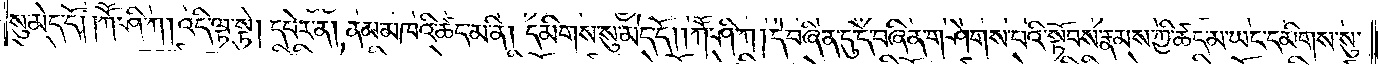སུ་མེད་དོ། །ཀཽ་ཤི་ཀ །འདི་ལྟ་སྟེ། དཔེར་ན། ནམ་མཁའི་ཚད་མ་ནི། དམིགས་སུ་མེད་དོ། །ཀཽ་ཤི་ཀ །དེ་བཞིན་དུ་དེ་བཞིན་གཤེགས་པའི་སྟོབས་རྣམས་ཀྱི་ཚད་མ་ཡང་དམིགས་སུ་
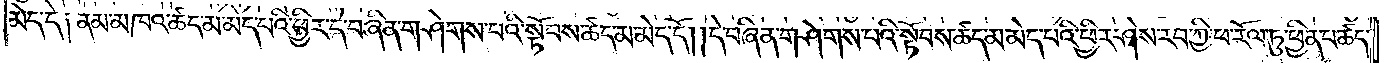མེད་དེ༑ ནམ་མཁའ་ཚད་མ་མེད་པའི་ཕྱིར་དེ་བཞིན་གཤེགས་པའི་སྟོབས་ཚད་མ་མེད་དོ། །དེ་བཞིན་གཤེགས་པའི་སྟོབས་ཚད་མ་མེད་པའི་ཕྱིར་ཤེས་རབ་ཀྱི་ཕ་རོལ་ཏུ་ཕྱིན་པ་ཚད་
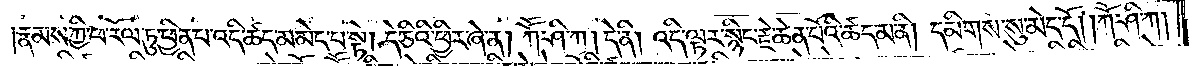རྣམས་ཀྱི་ཕ་རོལ་ཏུ་ཕྱིན་པ་འདི་ཚད་མ་མེད་པ་སྟེ། དེ་ཅིའི་ཕྱིར་ཞེ་ན། ཀཽ་ཤི་ཀ །དེ་ནི། འདི་ལྟར་སྙིང་རྗེ་ཆེན་པོའི་ཚད་མ་ནི། དམིགས་སུ་མེད་དོ། །ཀཽ་ཤི་ཀ།
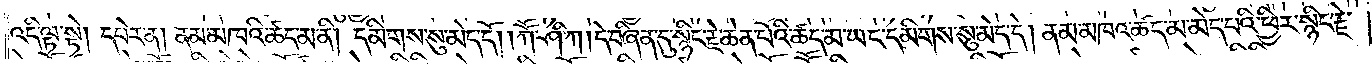འདི་ལྟ་སྟེ། དཔེར་ན། ནམ་མཁའི་ཚད་མ་ནི། དམིགས་སུ་མེད་དོ། །ཀཽ་ཤི་ཀ །དེ་བཞིན་དུ་སྙིང་རྗེ་ཆེན་པོའི་ཚད་མ་ཡང་དམིགས་སུ་མེད་དེ། ནམ་མཁའ་ཚད་མ་མེད་པའི་ཕྱིར་སྙིང་རྗེ་
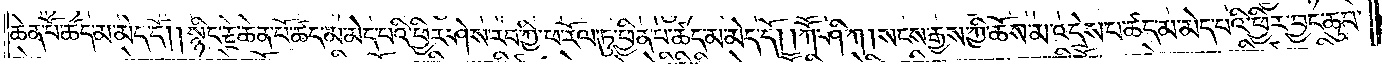ཆེན་པོ་ཚད་མ་མེད་དོ། །སྙིང་རྗེ་ཆེན་པོ་ཚད་མ་མེད་པའི་ཕྱིར་ཤེས་རབ་ཀྱི་ཕ་རོལ་ཏུ་ཕྱིན་པ་ཚད་མ་མེད་དོ། །ཀཽ་ཤི་ཀ །སངས་རྒྱས་ཀྱི་ཆོས་མ་འདྲེས་པ་ཚད་མ་མེད་པའི་ཕྱིར་བྱང་ཆུབ་
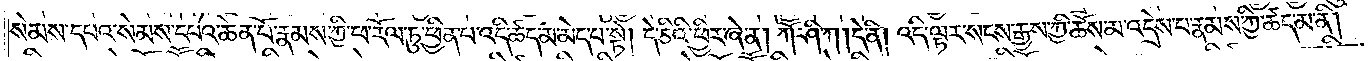སེམས་དཔའ་སེམས་དཔའ་ཆེན་པོ་རྣམས་ཀྱི་ཕ་རོལ་ཏུ་ཕྱིན་པ་འདི་ཚད་མ་མེད་པ་སྟེ། དེ་ཅིའི་ཕྱིར་ཞེ་ན། ཀཽ་ཤི་ཀ །དེ་ནི། འདི་ལྟར་སངས་རྒྱས་ཀྱི་ཆོས་མ་འདྲེས་པ་རྣམས་ཀྱི་ཚད་མ་ནི།
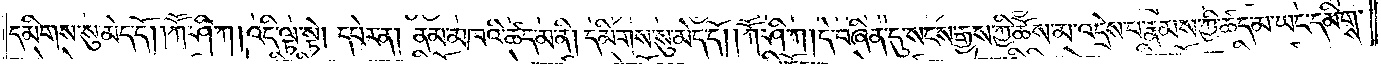དམིགས་སུ་མེད་དོ། །ཀཽ་ཤི་ཀ །འདི་ལྟ་སྟེ། དཔེར་ན། ནམ་མཁའི་ཚད་མ་ནི། དམིགས་སུ་མེད་དོ༎ ཀཽ་ཤི་ཀ །དེ་བཞིན་དུ་སངས་རྒྱས་ཀྱི་ཆོས་མ་འདྲེས་པ་རྣམས་ཀྱི་ཚད་མ་ཡང་དམིགས་
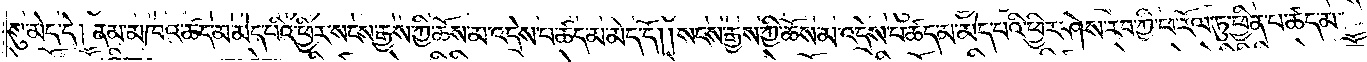སུ་མེད་དེ། ནམ་མཁའ་ཚད་མ་མེད་པའི་ཕྱིར་སངས་རྒྱས་ཀྱི་ཆོས་མ་འདྲེས་པ་ཚད་མ་མེད་དོ། །སངས་རྒྱས་ཀྱི་ཆོས་མ་འདྲེས་པ་ཚད་མ་མེད་པའི་ཕྱིར་ཤེས་རབ་ཀྱི་ཕ་རོལ་ཏུ་ཕྱིན་པ་ཚད་མ་
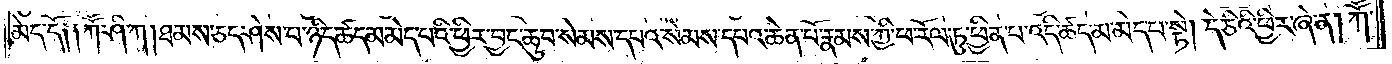མེད་དོ༑ ༑ཀཽ་ཤི་ཀ །ཐམས་ཅད་ཤེས་པ་ཉིད་མེད་པའི་ཕྱིར་བྱང་ཆུབ་སེམས་དཔའ་སེམས་དཔའ་ཆེན་པོ་རྣམས་ཀྱི་ཕ་རོལ་ཏུ་ཕྱིན་པ་འདི་ཚད་མ་མེད་པ་སྟེ། དེ་ཅིའི་ཕྱིར་ཞེ་ན། ཀཽ་
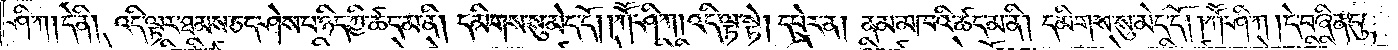ཤི་ཀ །དེ་ནི། འདི་ལྟར་ཐམས་ཅད་ཤེས་པ་ཉིད་ཀྱི་ཚད་མ་ནི། དམིགས་སུ་མེད་དོ། །ཀཽ་ཤི་ཀ །འདི་ལྟ་སྟེ། དཔེར་ན། ནམ་མཁའི་ཚད་མ་ནི། དམིགས་སུ་མེད་དོ། །ཀཽ་ཤི་ཀ །དེ་བཞིན་དུ་
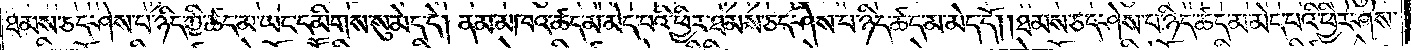ཐམས་ཅད་ཤེས་པ་ཉིད་ཀྱི་ཚད་མ་ཡང་དམིགས་སུ་མེད་དེ། ནམ་མཁའ་ཚད་མ་མེད་པའི་ཕྱིར་ཐམས་ཅད་ཤེས་པ་ཉིད་ཚད་མ་མེད་དོ། །ཐམས་ཅད་ཤེས་པ་ཉིད་ཚད་མ་མེད་པའི་ཕྱིར་ཤེས་
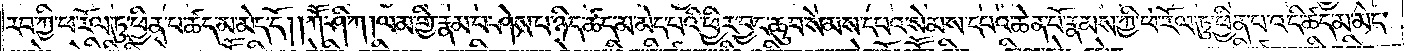རབ་ཀྱི་ཕ་རོལ་ཏུ་ཕྱིན་པ་ཚད་མ་མེད་དོ། །ཀཽ་ཤི་ཀ །ལམ་གྱི་རྣམ་པ་ཤེས་པ་ཉིད་ཚད་མ་མེད་པའི་ཕྱིར་བྱང་ཆུབ་སེམས་དཔའ་སེམས་དཔའ་ཆེན་པོ་རྣམས་ཀྱི་ཕ་རོལ་ཏུ་ཕྱིན་པ་འདི་ཚད་མ་མེད་
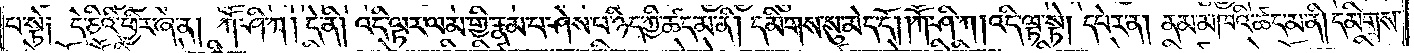པ་སྟེ། དེ་ཅིའི་ཕྱིར་ཞེ་ན། ཀཽ་ཤི་ཀ །དེ་ནི། འདི་ལྟར་ལམ་གྱི་རྣམ་པ་ཤེས་པ་ཉིད་ཀྱི་ཚད་མ་ནི། དམིགས་སུ་མེད་དོ། །ཀཽ་ཤི་ཀ །འདི་ལྟ་སྟེ། དཔེར་ན། ནམ་མཁའི་ཚད་མ་ནི། དམིགས་
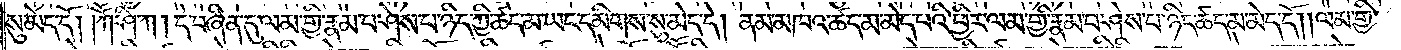སུ་མེད་དོ། །ཀཽ་ཤི་ཀ །དེ་བཞིན་དུ་ལམ་གྱི་རྣམ་པ་ཤེས་པ་ཉིད་ཀྱི་ཚད་མ་ཡང་དམིགས་སུ་མེད་དེ། ནམ་མཁའ་ཚད་མ་མེད་པའི་ཕྱིར་ལམ་གྱི་རྣམ་པ་ཤེས་པ་ཉིད་ཚད་མ་མེད་དོ། །ལམ་གྱི་
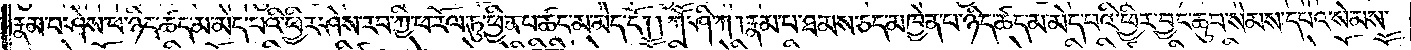རྣམ་པ་ཤེས་པ་ཉིད་ཚད་མ་མེད་པའི་ཕྱིར་ཤེས་རབ་ཀྱི་ཕ་རོལ་ཏུ་ཕྱིན་པ་ཚད་མ་མེད་དོ། །ཀཽ་ཤི་ཀ །རྣམ་པ་ཐམས་ཅད་མཁྱེན་པ་ཉིད་ཚད་མ་མེད་པའི་ཕྱིར་བྱང་ཆུབ་སེམས་དཔའ་སེམས་
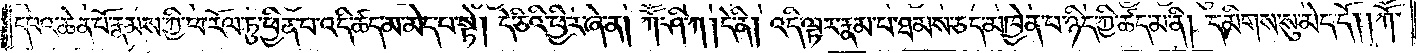དཔའ་ཆེན་པོ་རྣམས་ཀྱི་ཕ་རོལ་ཏུ་ཕྱིན་པ་འདི་ཚད་མ་མེད་པ་སྟེ། དེ་ཅིའི་ཕྱིར་ཞེ་ན། ཀཽ་ཤི་ཀ །དེ་ནི། འདི་ལྟར་རྣམ་པ་ཐམས་ཅད་མཁྱེན་པ་ཉིད་ཀྱི་ཚད་མ་ནི། དམིགས་སུ་མེད་དོ། །ཀཽ་
